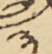༣
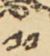༡༡
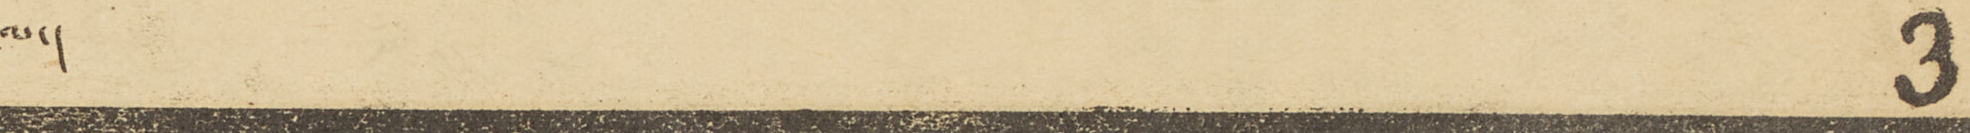ལ་། 3
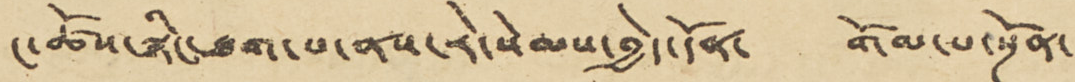ང་ཚོས་སྙིང་ཐག་པ་ནས་རེ་སེམས་བྱེད་དོན་ གོམ་པ་སྔོན་
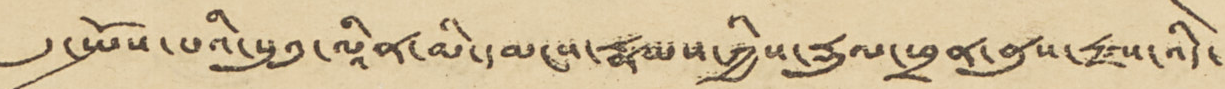དུ་སྤོས་པའི་སུའུ་ལཱིན་མི་དམངས་ཀྱིས་རྡུལ་ཕྲན་ནུས་རྫས་འདི་
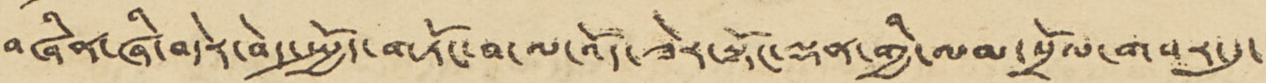བཞིན་ཞི་བདེར་བེད་སྤྱོད་གཏོང་བ་ལ་འོད་ཟེར་སྟོང་ལྡན་གྱི་ལམ་སྲོལ་གསར་དུ་
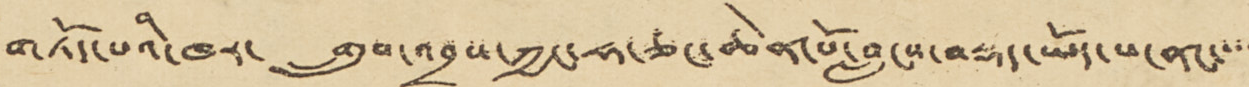གཏོད་པའི་ཁར་ གྲུབ་འབྲས་ཀྱང་ཧ་ཅང་ཆེན་པོ་བླངས་བསྡད་ཡོད་པ་ནང་་་་
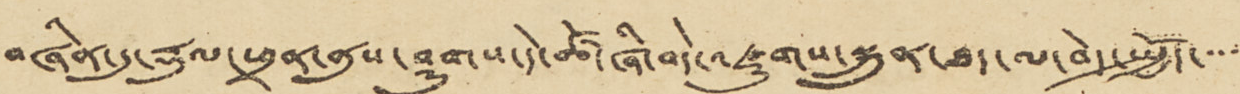བཞིན་དུ་རྡུལ་ཕྲན་ནུས་ཤུགས་དེ་ཚོ་ཞི་བདེ་འཛུགས་སྐྲུན་ཐད་ལ་བེད་སྤྱོད་་་་་
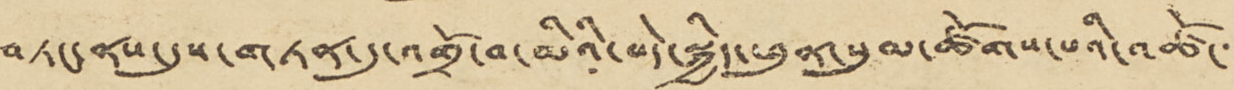བཏང་ནས་དུས་གཏན་དུ་འགྲོ་བ་མིའི་བདེ་སྐྱིད་ཕུན་སུམ་ཚོགས་པའི་འཚོ་་་
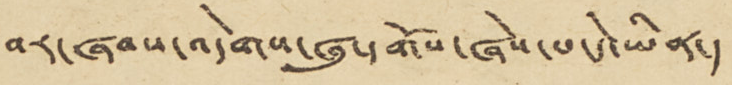བར་ཞབས་འདེགས་ཞུ་དགོས་ཞེས་པ་དེ་ཡིན་།
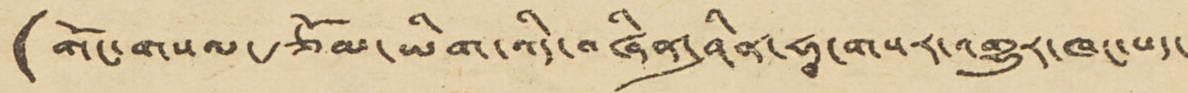(གོང་གསལ་རྩོམ་ཡིག་འདི་བཞིན་ཤིན་ཧྭ་གསར་འགྱུར་ཁང་པད་
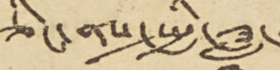ཅིང་ནས་སྤྱི་ཟླ་
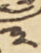༣
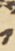༡
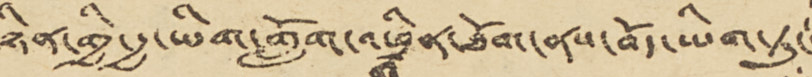ཉིན་གྱི་རྒྱ་ཡིག་གློག་འཕྲིན་ཐོག་ནས་བོད་ཡིག་ཏུ་
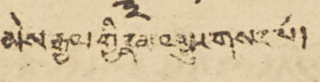མེས་རྒྱལ་གྱི་རྣམ་འགྱུར་གསར་པ།
